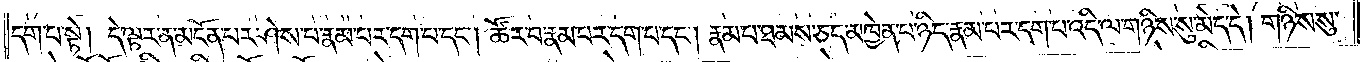དག་པ་སྟེ། དེ་ལྟར་ན་མངོན་པར་ཤེས་པ་རྣམ་པར་དག་པ་དང༌། ཚོར་བ་རྣམ་པར་དག་པ་དང༌། རྣམ་པ་ཐམས་ཅད་མཁྱེན་པ་ཉིད་རྣམ་པར་དག་པ་འདི་ལ་གཉིས་སུ་མེད་དེ། གཉིས་སུ་
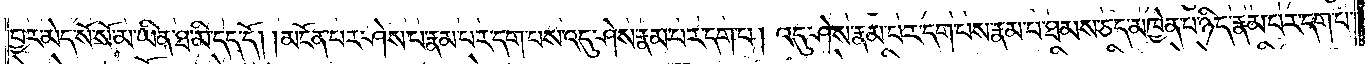བྱར་མེད་སོ་སོ་མ་ཡིན་ཐ་མི་དད་དོ། །མངོན་པར་ཤེས་པ་རྣམ་པར་དག་པས་འདུ་ཤེས་རྣམ་པར་དག་པ། འདུ་ཤེས་རྣམ་པར་དག་པས་རྣམ་པ་ཐམས་ཅད་མཁྱེན་པ་ཉིད་རྣམ་པར་དག་པ་
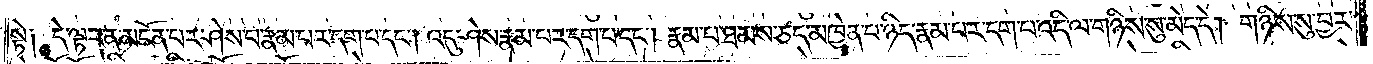སྟེ༑ དེ་ལྟར་ན་མངོན་པར་ཤེས་པ་རྣམ་པར་དག་པ་དང༌། འདུ་ཤེས་རྣམ་པར་དག་པ་དང༌། རྣམ་པ་ཐམས་ཅད་མཁྱེན་པ་ཉིད་རྣམ་པར་དག་པ་འདི་ལ་གཉིས་སུ་མེད་དེ། གཉིས་སུ་བྱར་
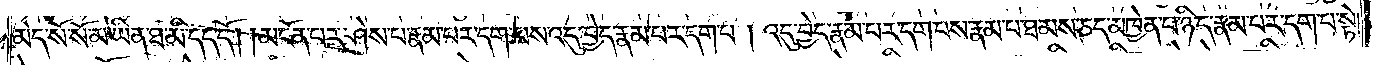མེད་སོ་སོ་མ་ཡིན་ཐ་མི་དད་དོ། །མངོན་པར་ཤེས་པ་རྣམ་པར་དག་པས་འདུ་བྱེད་རྣམ་པར་དག་པ། འདུ་བྱེད་རྣམ་པར་དག་པས་རྣམ་པ་ཐམས་ཅད་མཁྱེན་པ་ཉིད་རྣམ་པར་དག་པ་སྟེ།
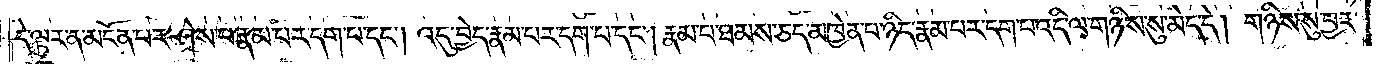དེ་ལྟར་ན་མངོན་པར་ཤེས་པ་རྣམ་པར་དག་པ་དང༌། འདུ་བྱེད་རྣམ་པར་དག་པ་དང༌། རྣམ་པ་ཐམས་ཅད་མཁྱེན་པ་ཉིད་རྣམ་པར་དག་པ་འདི་ལ་གཉིས་སུ་མེད་དེ། གཉིས་སུ་བྱར་
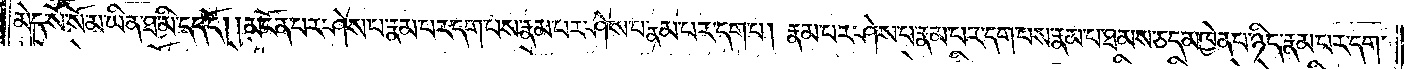མེད་སོ་སོ་མ་ཡིན་ཐ་མི་དད་དོ། །མངོན་པར་ཤེས་པ་རྣམ་པར་དག་པས་རྣམ་པར་ཤེས་པ་རྣམ་པར་དག་པ། རྣམ་པར་ཤེས་པ་རྣམ་པར་དག་པས་རྣམ་པ་ཐམས་ཅད་མཁྱེན་པ་ཉིད་རྣམ་པར་དག་
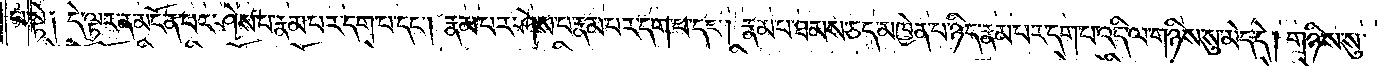པ་སྟེ༑ དེ་ལྟར་ན་མངོན་པར་ཤེས་པ་རྣམ་པར་དག་པ་དང༌། རྣམ་པར་ཤེས་པ་རྣམ་པར་དག་པ་དང༌། རྣམ་པ་ཐམས་ཅད་མཁྱེན་པ་ཉིད་རྣམ་པར་དག་པ་འདི་ལ་གཉིས་སུ་མེད་དེ། གཉིས་སུ་
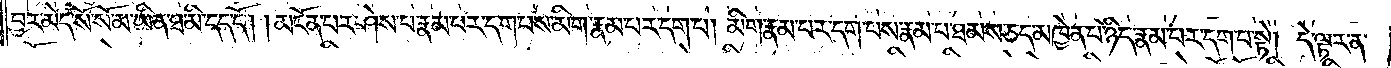བྱར་མེད་སོ་སོ་མ་ཡིན་ཐ་མི་དད་དོ། །མངོན་པར་ཤེས་པ་རྣམ་པར་དག་པས་མིག་རྣམ་པར་དག་པ། མིག་རྣམ་པར་དག་པས་རྣམ་པ་ཐམས་ཅད་མཁྱེན་པ་ཉིད་རྣམ་པར་དག་པ་སྟེ། དེ་ལྟར་ན་
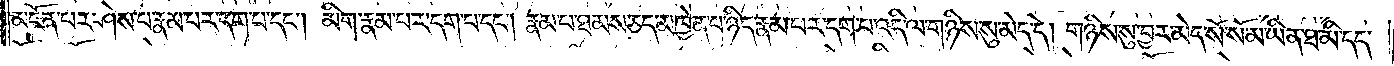མངོན་པར་ཤེས་པ་རྣམ་པར་དག་པ་དང༌། མིག་རྣམ་པར་དག་པ་དང༌། རྣམ་པ་ཐམས་ཅད་མཁྱེན་པ་ཉིད་རྣམ་པར་དག་པ་འདི་ལ་གཉིས་སུ་མེད་དེ། གཉིས་སུ་བྱར་མེད་སོ་སོ་མ་ཡིན་ཐ་མི་དད་
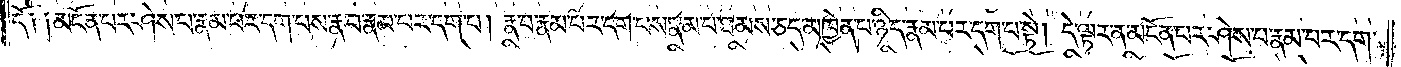དོ༑ ༑མངོན་པར་ཤེས་པ་རྣམ་པར་དག་པས་རྣ་བ་རྣམ་པར་དག་པ། རྣ་བ་རྣམ་པར་དག་པས་རྣམ་པ་ཐམས་ཅད་མཁྱེན་པ་ཉིད་རྣམ་པར་དག་པ་སྟེ། དེ་ལྟར་ན་མངོན་པར་ཤེས་པ་རྣམ་པར་དག་
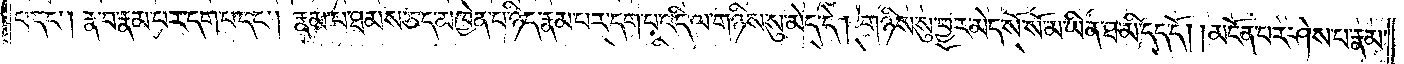པ་དང༌། རྣ་བ་རྣམ་པར་དག་པ་དང༌། རྣམ་པ་ཐམས་ཅད་མཁྱེན་པ་ཉིད་རྣམ་པར་དག་པ་འདི་ལ་གཉིས་སུ་མེད་དེ། གཉིས་སུ་བྱར་མེད་སོ་སོ་མ་ཡིན་ཐ་མི་དད་དོ། །མངོན་པར་ཤེས་པ་རྣམ་
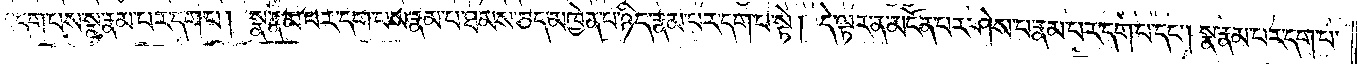པར་དག་པས་སྣ་རྣམ་པར་དག་པ། སྣ་རྣམ་པར་དག་པས་རྣམ་པ་ཐམས་ཅད་མཁྱེན་པ་ཉིད་རྣམ་པར་དག་པ་སྟེ། དེ་ལྟར་ན་མངོན་པར་ཤེས་པ་རྣམ་པར་དག་པ་དང༌། སྣ་རྣམ་པར་དག་པ་
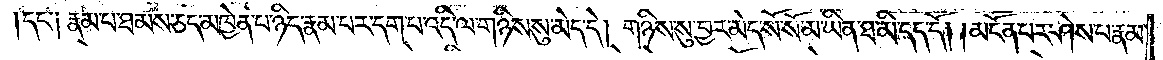དང་༑ རྣམ་པ་ཐམས་ཅད་མཁྱེན་པ་ཉིད་རྣམ་པར་དག་པ་འདི་ལ་གཉིས་སུ་མེད་དེ། གཉིས་སུ་བྱར་མེད་སོ་སོ་མ་ཡིན་ཐ་མི་དད་དོ། །མངོན་པར་ཤེས་པ་རྣམ་
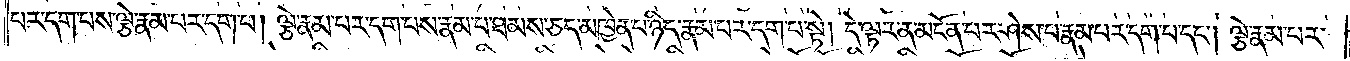པར་དག་པས་ལྕེ་རྣམ་པར་དག་པ། ལྕེ་རྣམ་པར་དག་པས་རྣམ་པ་ཐམས་ཅད་མཁྱེན་པ་ཉིད་རྣམ་པར་དག་པ་སྟེ། དེ་ལྟར་ན་མངོན་པར་ཤེས་པ་རྣམ་པར་དག་པ་དང༌། ལྕེ་རྣམ་པར་
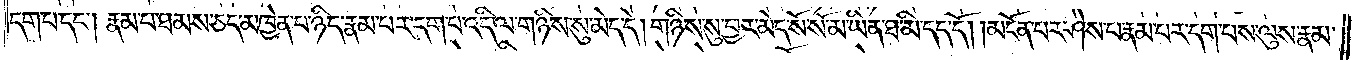དག་པ་དང༌། རྣམ་པ་ཐམས་ཅད་མཁྱེན་པ་ཉིད་རྣམ་པར་དག་པ་འདི་ལ་གཉིས་སུ་མེད་དེ། གཉིས་སུ་བྱར་མེད་སོ་སོ་མ་ཡིན་ཐ་མི་དད་དོ། །མངོན་པར་ཤེས་པ་རྣམ་པར་དག་པས་ལུས་རྣམ་
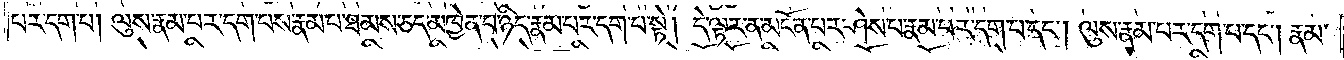པར་དག་པ། ལུས་རྣམ་པར་དག་པས་རྣམ་པ་ཐམས་ཅད་མཁྱེན་པ་ཉིད་རྣམ་པར་དག་པ་སྟེ། དེ་ལྟར་ན་མངོན་པར་ཤེས་པ་རྣམ་པར་དག་པ་དང༌། ལུས་རྣམ་པར་དག་པ་དང༌། རྣམ་
